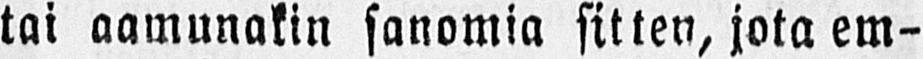tai aamunakin sanomia sitten, jota em-
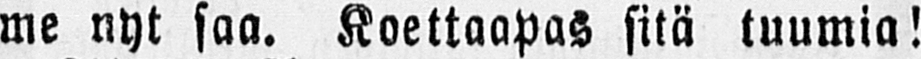me nyt saa. Koettaapas sitä tuumia!
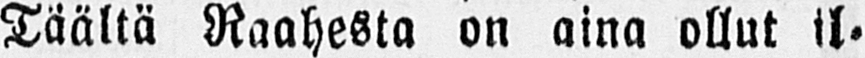Täältä Raahesta on aina ollut il-
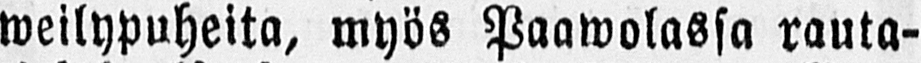weilypuheita, myös Paawolassa rauta-
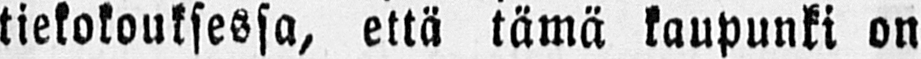tiekokouksessa, että tämä kaupunki on
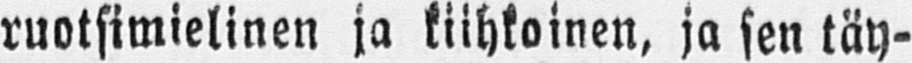ruotsimielinen ja kiihkoinen, ja sen täy-
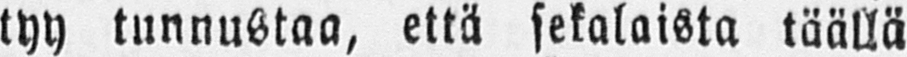tyy tunnustaa, että sekalaista täällä
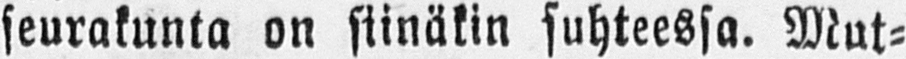seurakunta on siinäkin suhteessa. Mut-
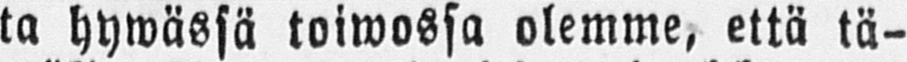ta hywässä toiwossa olemme, että tä-
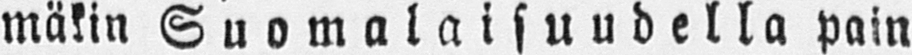mäkin Suomalaisuudella pain
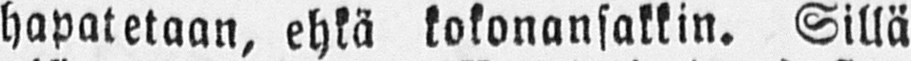hapatetaan, ehkä kokonansakkin. Sillä
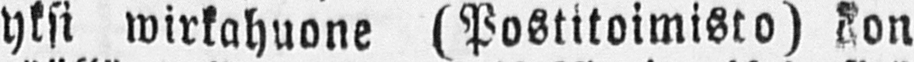yksi wirkahuone (Postitoimisto) on
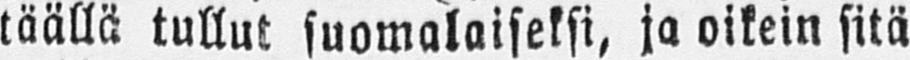täällä tullut suomalaiseksi, ja oikein sitä
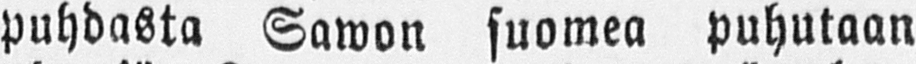puhdasta Sawon suomea puhutaan
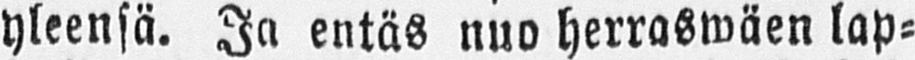yleensä. Ja entäs nuo herraswäen lap-
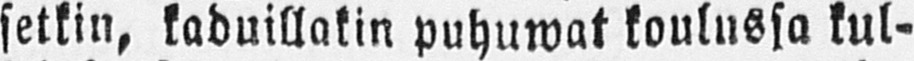setkin, kaduillakin puhuwat koulussa kul-
